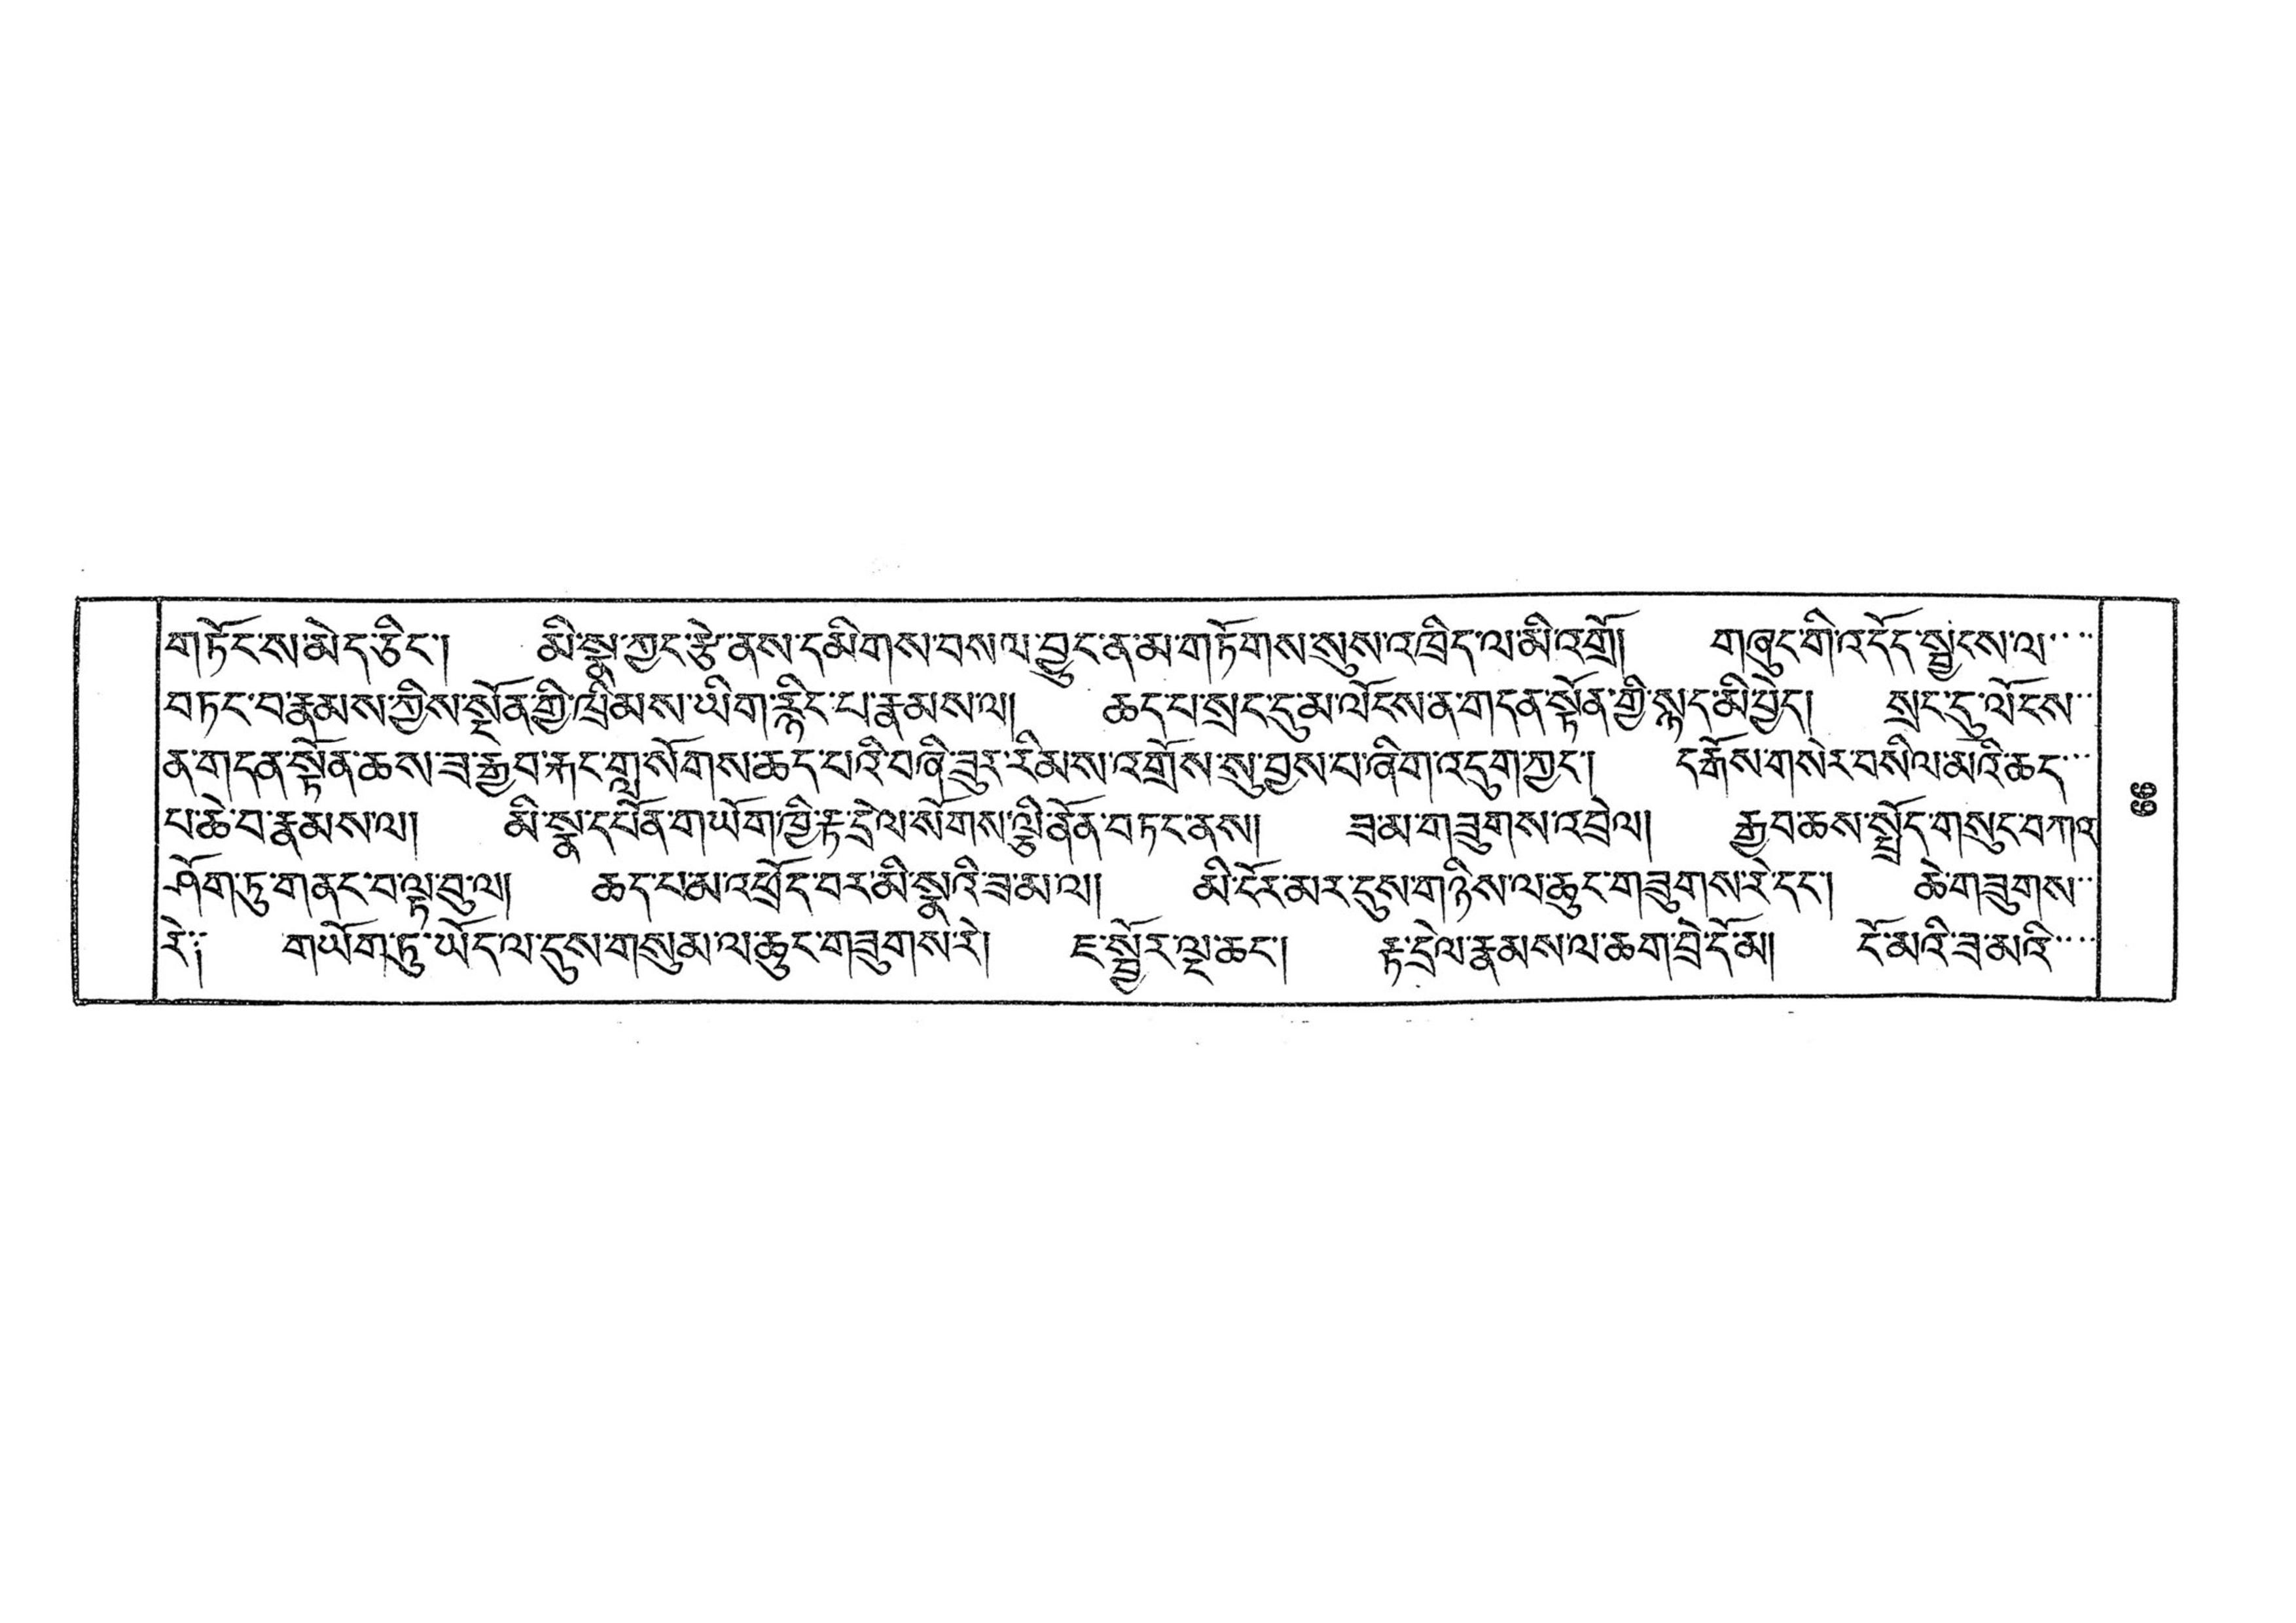གཏོངས་མེད་ཅིང་། མི་སྣ་ཀྱང་རྩེ་ནས་དམིགས་བསལ་བྱུང་ན་མ་གཏོགས་སུས་འཁྲིད་ལ་མི་འགྲོ། གཞུང་གི་འདོད་སྤྱངས་ལ་་་་
བཏང་བ་རྣམས་ཀྱིས་སྔོན་གྱི་ཁྲིམས་ཡིག་རྙིང་པ་རྣམས་ལ། ཆད་པ་སྲང་དུ་མ་ལོངས་ན་གདན་སྟོན་གྱི་སྙད་མི་བྱེད། སྲང་དུ་ལོངས་
ན་གདན་སྟོན་ཆས་ཟ་རྒྱབ་རྐང་གླ་སོགས་ཆད་པའི་བཞི་ཟུར་རིམས་འགྲོས་སུ་བྱས་པ་ཞིག་འདུག་ཀྱང་། དརྒོས་གསེར་བསིལ་མའི་ཆད་་་
པ་ཆེ་བ་རྣམས་ལ། མི་སྣ་དཔོན་གཡོག་ཁྱི་རྟ་དྲེལ་སོགས་ལྕི་ནོན་བཏང་ནས། ཟ་མ་གཟུགས་འབྲེལ། རྒྱབ་ཆས་སྤྲོད་གསུང་བཀའ་
ཤོག་ཏུ་གནང་བ་ལྟ་བུ་ལ། ཆད་པ་མ་འཕྲོད་བར་མི་སྣའི་ཟ་མ་ལ། མི་ངོར་མར་དུས་གཉིས་ལ་ཆུང་གཟུགས་རེ་དང་། ཆེ་གཟུགས་་
རེ༑ གཡོག་ཏུ་ཡོད་ལ་དུས་གསུམ་ལ་ཆུང་གཟུགས་རེ། ཇ་སྦྱོར་ལྔ་ཆང་། རྟ་དྲེལ་རྣམས་ལ་ཆག་བྲེ་དོ་མ། ངོ་མའི་ཟ་མའི་་་་
